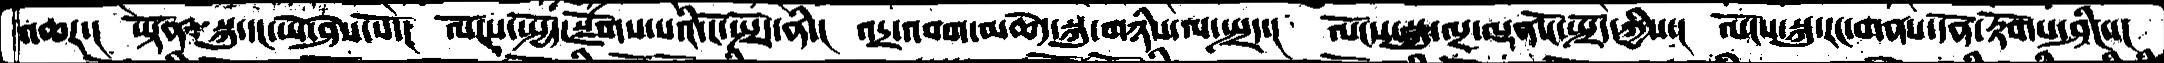འཆར་།  ཡྟོན་སྐུ་དང་ཡེ་ཤེས་སོ་།  ལོངས་སྤྱོད་སྫོགས་པའི་ངོ་སྤྲོད་ནི་།  འདྲ་འབག་མཆེད་སྐུ་གཉིས་ལ་སྤྲད་།  ལོངས་སྐུ་ལྔ་ལྡན་ངོ་སྤྲོད་ཀྱིས་།  ལོངས་སྐུ་རང་གནས་དོན་རྟོགས་ཤིང་་།
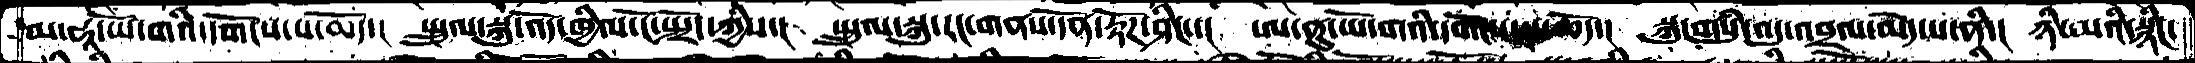མ་ཧཱ་ཡོ་གའི་དགོངས་པ་མོད་།  སྤྲུལ་སྐུ་འོད་ཁྱིལ་ངོ་སྤྲོད་ཀྱིས་།  སྤྲུལ་སྐུ་རང་གནས་དོན་རྟོཌ་ཤིང་་།  ཨ་ནུ་ཡོ་གའི་དགོངས་པ་ཆོད་།  སྐུ་གསུཾ་འདུ་འབྲལ་མེད་པ་ནི་།  ཉི་མའི་སྙིང་
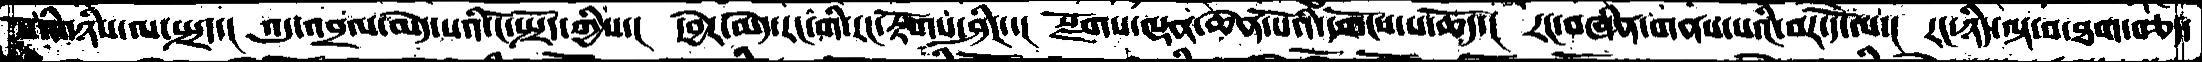པོའི་ཉིས་ལ་སྤྲད་།  འདུ་འབྲལ་མེད་པའི་ངོ་སྤྲོད་གྱིས་།  དབྱེར་མེད་རང་གི་རང་རྟོགས་ཤིང་་།  སྫོགས་ལྡན་ཆེན་པོའི་དགོངས་པ་ཆོད་།  རང་བཞིན་གནས་པའི་བར་དོ་ལ་།  རང་ཉིད་ལྟ་བ་ཐག་བཅད་
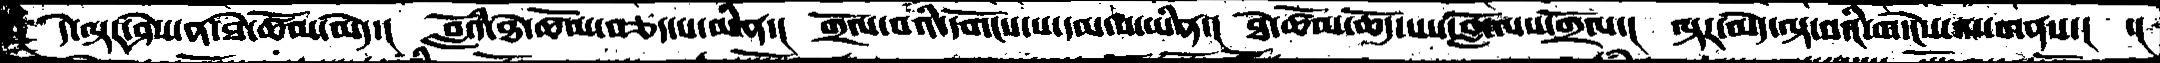དེ་ལྟར་ཤེས་ན་ཐེ་ཚོམ་མེད་། བློའི་ཐེ་ཚོམ་བཅད་པ་མིན་། གྲོལ་བའི་དགོངས་པ་དམ་པ་ཡིན་། ཐེ་ཚོམ་ཆོད་པས་བློ་ལས་གྲོལ་། ལྟར་མེད་ལྟ་བའི་གདེངས་ལ་གནས་། ་།
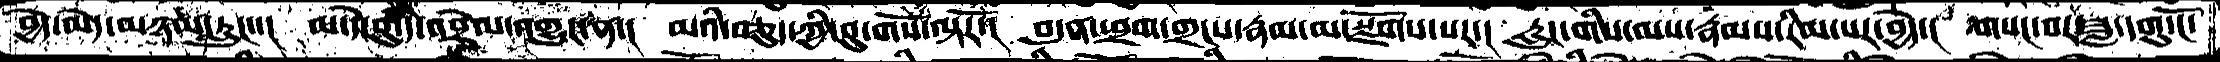བྱེད་མེད་མཉམ་རླུང་་།  མ་དེ་བུ་དེ་འབྲེལ་འགྱུར་ན་།  མའི་བཅུད་ཀྱི་བུ་གསོ་ལྟརོ་།  བདུན་ཕྲག་གྲངས་རྣམ་མ་སྫོགས་པར་།  རླུང་གིས་ལས་རྣམས་རིམ་པར་བྱེད་།  གསང་བར་ཟླ་དགུ་ངོ་
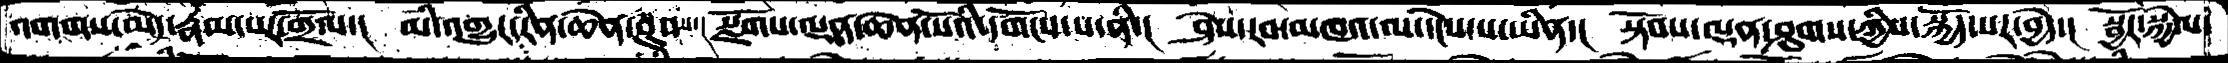འགགས་མེད་རྣམ་པར་གྲོལ་།  མི་འགྱུར་རིན་ཆེན་བུབས་།  སྫོགས་ལྡན་ཆེན་པོའི་དགོངས་པ་ནི་།  ཤེས་རབ་མཁའ་ལ་ངེས་པ་ཡིན་།  སྟོབས་ལྡན་ཤུགས་ཀྱིས་སྐྱོད་པར་བྱེད་།  སྦྱོར་སྐྱེལ་
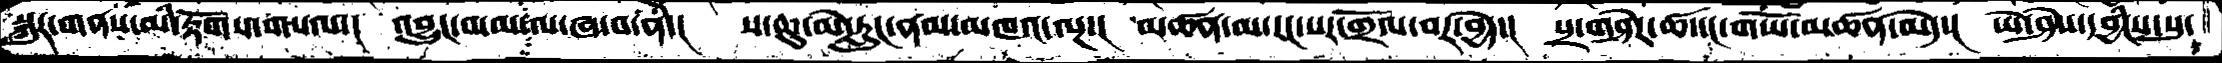སྐུར་གནས་མི་རྟོགས་གསལ་།  འབྱུང་བ་མ་ལ་ཞ་བ་ནི་།  ས་ཆུ་མེ་རླུང་ནམ་མཁའ་ལྔ་།  མཚན་མ་རང་སར་གྲོལ་བར་བྱེད་།  པྲ་གཤེར་ཚ་དང་གཡོ་མཚན་མེད་།  ཡེ་ཤེས་དབྱིངས་སུ་
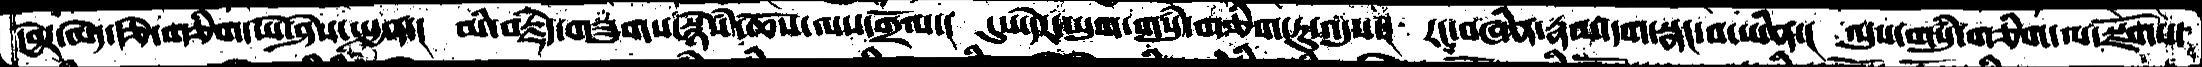དབྱེར་མེད་རྩེ་གཅིག་ཡེ་ཤེས་སྤྱན་།  མི་བརྗེད་གཟུགས་སྙེསཾ་ཆོས་ལས་གྲོལ་།  དུས་དེར་ཡུག་གསུཾ་གཅིག་ཏུ་འདུས་།  རང་བཞིན་རྣམ་དག་སྣང་བ་ཡིན་།  ལུས་གསུཾ་གཅིག་ལ་སྫོགས་
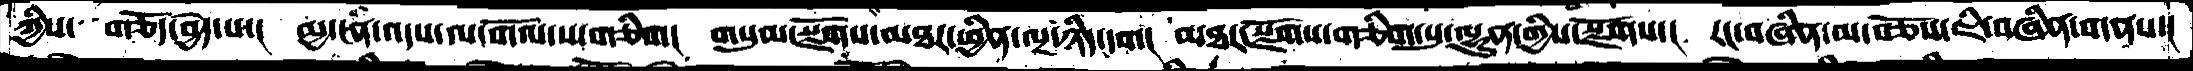ཀྱིས་  གཅོད་བྱེད་པ་།  མྱ་ངན་འདས་ལ་གོལ་ས་གཅིག།  གསུམ་སྫོགས་མཐར་ཕྱིན་ལྔ་ཉིད་དག།  མཐར་སྫོགས་གཅིག་པུ་ལྷུན་གྱིས་སྫོགས་།  རང་བཞིན་མ་བཅོས་ཇི་བཞིན་གནས་།
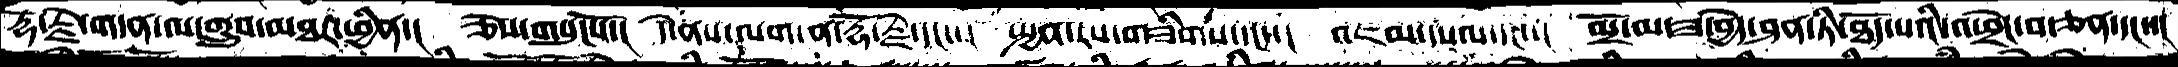རྡོ་རྗེ་གདན་ལ་གྲུབ་མཐར་ཕྱིན་།  ཅེས་གསུངསོ་།  དེ་ནས་ལག་ན་རྡོ་རྗེ་དང་་།   སྤྱན་རས་གཟིགས་དང་་།  འཇམ་དཔལ་དང་་།  མྲོ་མ་ཟ་བྱེད་ཤན་ཏི་ཐོད་པའི་འཕྲེང་བ་ཅན་དང་་།
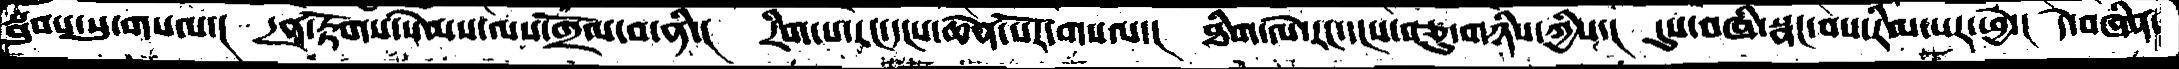སྦུབས་སུ་གསལ་།  དྲན་རྟོགས་སེམས་ལས་གྲོལ་བ་ནི་།  རིག་པ་རང་དངས་ཆེན་པོར་གསལ་།  ཐིག་ལེ་རང་དངས་བཅུ་གཉིས་ཀྱིས་།  དུས་བཞི་སྣང་བས་རིམ་པར་ཕྱེ་།  དེ་བཞིན་
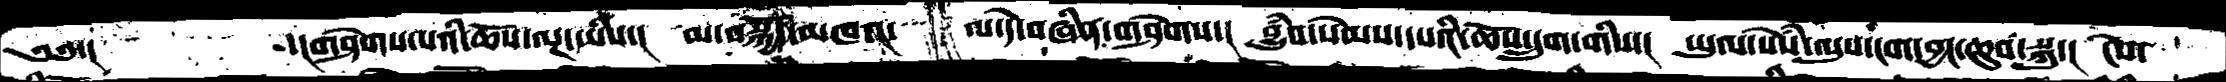༄༅་།     ་།གཤེགས་པའི་ཆོས་ལྔ་ཡིས་།  མ་བསྐྱོད་མཁའ་    ལ་དེ་བཞིན་གཤེགས་།  བྱུཾབ་སེམས་དཔའི་ཆོས་དྲུག་གིས་།  ཡུལ་སེཾས་ལུས་ངག་བྱང་ཆུབ་སྐུ་།  ངེས་
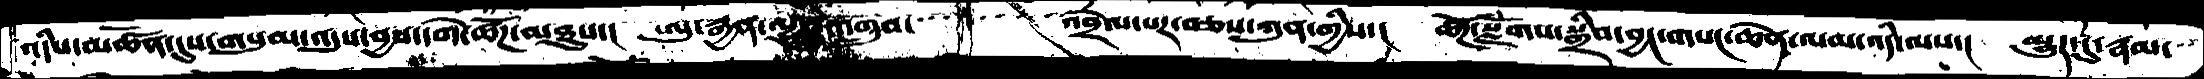འདིས་མཚོན་དུས་གསུམ་འདུས་བྱས་དགེ་ཚོཌ་མཐུས་།  ཨུ་རྒྱན་ལྷུན་འགྲུབ་              འབྲེལ་པར་བཅས་ཀུན་གྱིས་།  ཚོཌ་སྫོགས་སྒྲིབ་བྱང་གསང་ཆེན་ལམ་འདི་ལས་།  མྱུར་དུ་རྣམ་
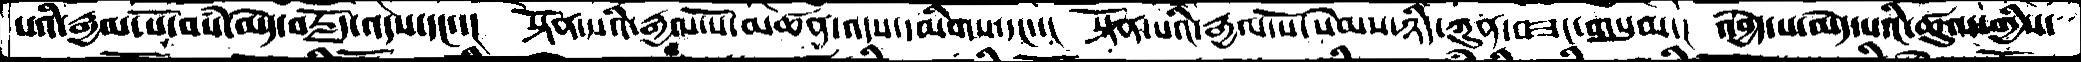པའི་རྒྱལ་པོ་བསཾ་མེད་བརྗོད་འདས་དང་་།  སྟོན་པའི་རྒྱལ་པོ་མཚན་འདས་དམིགས་དང་་།  སྟོན་པའི་རྒྱལ་པོ་སེམས་ཉིད་ཀུན་བཟང་གསུམ་།  འབྱེད་པ་མེད་པའི་ཚུལ་གྱིས་
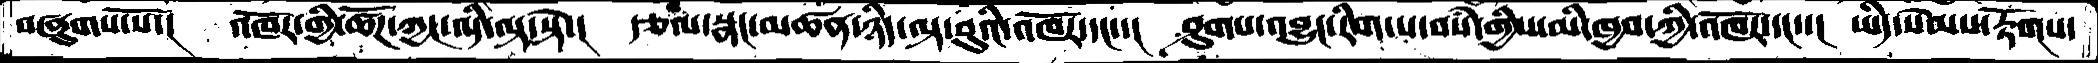བཞུགས་སོ་།  འཁོར་གྱི་ཚོཌ་ཀྱང་འདི་ལྟ་སྟེ་།  རྩལ་སྣང་མཚན་ཉིད་ལྟ་བུའི་འཁོར་དང་་།  ཤུགས་འབྱུང་རིག་པ་བསཾ་གྱིས་མི་ཁྱབ་ཀྱི་འཁོར་དང་་།  ཡིད་སེམས་རྟོགས་
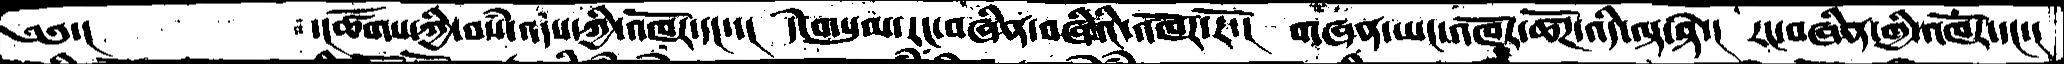༄༅་།       ་།ཚོགས་ཀྱི་བསཾ་འདས་ཀྱི་འཁོར་དང་་།  དེ་གསུམ་རང་བཞིན་བཞིའི་འཁོར་རོ་།  གཞན་ཡང་འཁོར་ཚོཌ་འདི་ལྟ་སྟེ་།  རང་བཞིན་གྱི་འཁོར་དང་།
